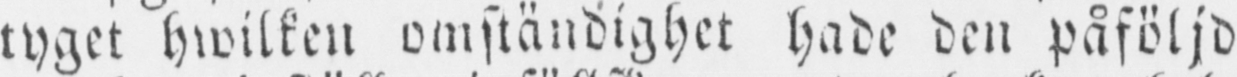tyget hwilken omständighet hade den påföljd
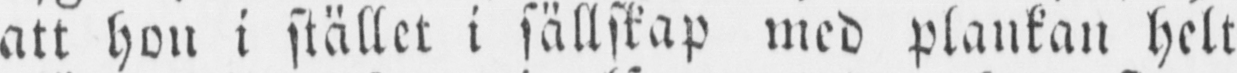att hon i stället i sällskap med plankan helt
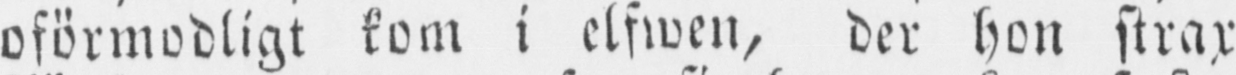oförmodligt kom i elfwen, der hon strax
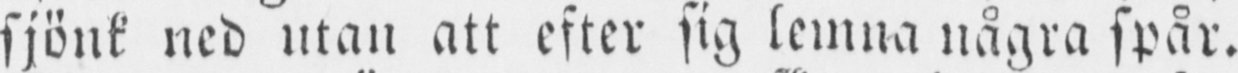sjönk ned utan att efter sig lemna några spår.
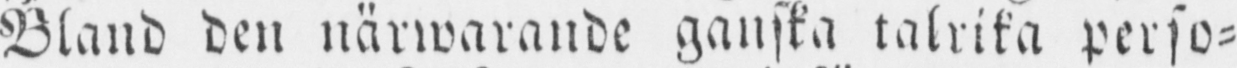Bland den närwarande ganska talrika perso-
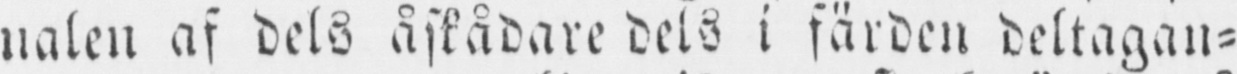nalen af dels åskådare dels i färden deltagan-
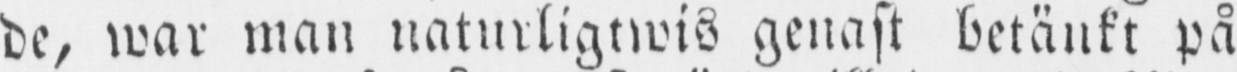de, war man naturligtwis genast betänkt på
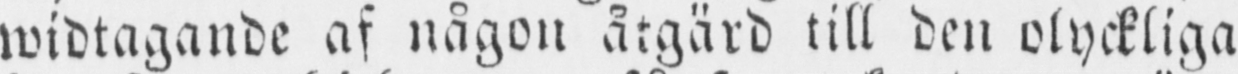widtagande af någon åtgärd till den olyckliga
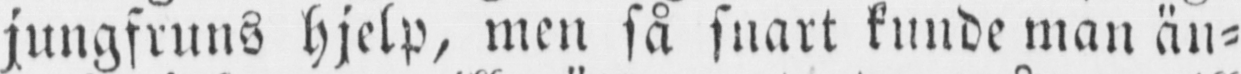jungfruns hjelp, men så snart kunde man än-
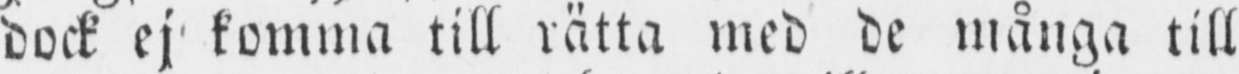dock ej komma till rätta med de många till
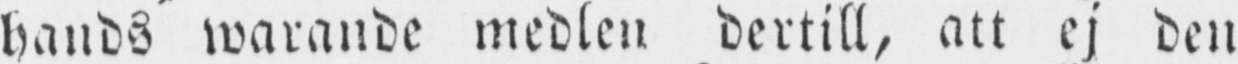hands warande medlen dertill, att ej den
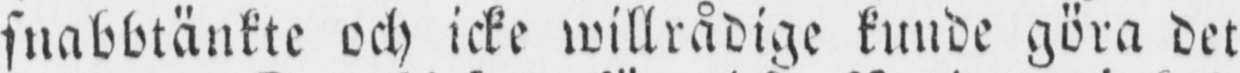snabbtänkte och icke willrådige kilnde göra det
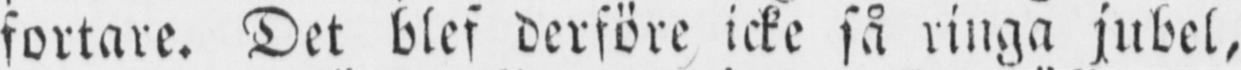fortare. Det blef derföre icke så ringa jubel,
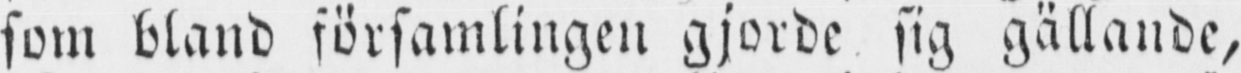som bland församlingen gjorde sig gällande,
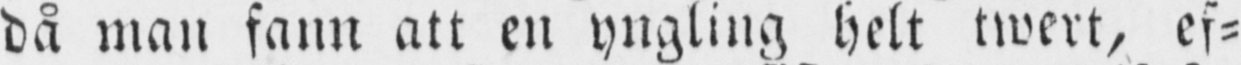då man fann att en yngling helt twert, ef-
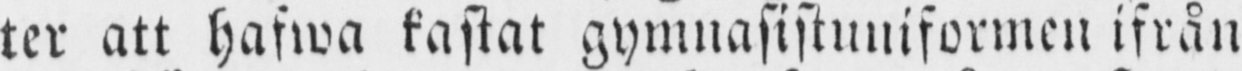ter att hafwa kastat gymnasistuniformen ifrån
